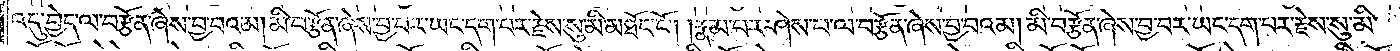འདུ་བྱེད་ལ་བརྩོན་ཞེས་བྱ་བའམ། མི་བརྩོན་ཞེས་བྱ་བར་ཡང་དག་པར་རྗེས་སུ་མི་མཐོང་ངོ༌། །རྣམ་པར་ཤེས་པ་ལ་བརྩོན་ཞེས་བྱ་བའམ། མི་བརྩོན་ཞེས་བྱ་བར་ཡང་དག་པར་རྗེས་སུ་མི་
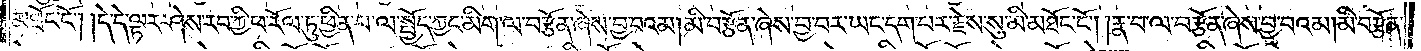མཐོང་ངོ༌། །དེ་དེ་ལྟར་ཤེས་རབ་ཀྱི་ཕ་རོལ་ཏུ་ཕྱིན་པ་ལ་སྤྱོད་ཀྱང་མིག་ལ་བརྩོན་ཞེས་བྱ་བའམ། མི་བརྩོན་ཞེས་བྱ་བར་ཡང་དག་པར་རྗེས་སུ་མི་མཐོང་ངོ༌། །རྣ་བ་ལ་བརྩོན་ཞེས་བྱ་བའམ། མི་བརྩོན་
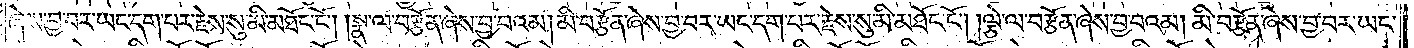ཞེས་བྱ་བར་ཡང་དག་པར་རྗེས་སུ་མི་མཐོང་ངོ༌། །སྣ་ལ་བརྩོན་ཞེས་བྱ་བའམ། མི་བརྩོན་ཞེས་བྱ་བར་ཡང་དག་པར་རྗེས་སུ་མི་མཐོང་ངོ༌། །ལྕེ་ལ་བརྩོན་ཞེས་བྱ་བའམ། མི་བརྩོན་ཞེས་བྱ་བར་ཡང་
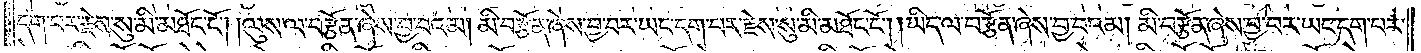དག་པར་རྗེས་སུ་མི་མཐོང་ངོ༌། །ལུས་ལ་བརྩོན་ཞེས་བྱ་བའམ། མི་བརྩོན་ཞེས་བྱ་བར་ཡང་དག་པར་རྗེས་སུ་མི་མཐོང་ངོ༌། །ཡིད་ལ་བརྩོན་ཞེས་བྱ་བའམ། མི་བརྩོན་ཞེས་བྱ་བར་ཡང་དག་པར་
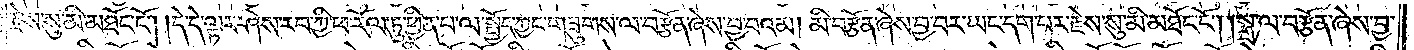རྗེས་སུ་མི་མཐོང་ངོ༌། །དེ་དེ་ལྟར་ཤེས་རབ་ཀྱི་ཕ་རོལ་ཏུ་ཕྱིན་པ་ལ་སྤྱོད་ཀྱང་གཟུགས་ལ་བརྩོན་ཞེས་བྱ་བའམ། མི་བརྩོན་ཞེས་བྱ་བར་ཡང་དག་པར་རྗེས་སུ་མི་མཐོང་ངོ༌། །སྒྲ་ལ་བརྩོན་ཞེས་བྱ་
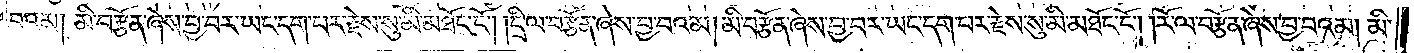བའམ། མི་བརྩོན་ཞེས་བྱ་བར་ཡང་དག་པར་རྗེས་སུ་མི་མཐོང་ངོ༌། །དྲི་ལ་བརྩོན་ཞེས་བྱ་བའམ། མི་བརྩོན་ཞེས་བྱ་བར་ཡང་དག་པར་རྗེས་སུ་མི་མཐོང་ངོ༌། །རོ་ལ་བརྩོན་ཞེས་བྱ་བའམ། མི་
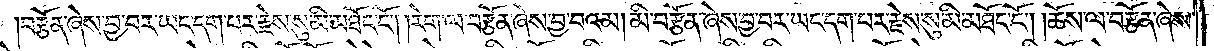བརྩོན་ཞེས་བྱ་བར་ཡང་དག་པར་རྗེས་སུ་མི་མཐོང་ངོ༌། །རེག་ལ་བརྩོན་ཞེས་བྱ་བའམ། མི་བརྩོན་ཞེས་བྱ་བར་ཡང་དག་པར་རྗེས་སུ་མི་མཐོང་ངོ༌། །ཆོས་ལ་བརྩོན་ཞེས་
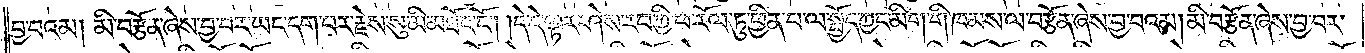བྱ་བའམ། མི་བརྩོན་ཞེས་བྱ་བར་ཡང་དག་པར་རྗེས་སུ་མི་མཐོང་ངོ༌། །དེ་དེ་ལྟར་ཤེས་རབ་ཀྱི་ཕ་རོལ་ཏུ་ཕྱིན་པ་ལ་སྤྱོད་ཀྱང་མིག་གི་ཁམས་ལ་བརྩོན་ཞེས་བྱ་བའམ། མི་བརྩོན་ཞེས་བྱ་བར་
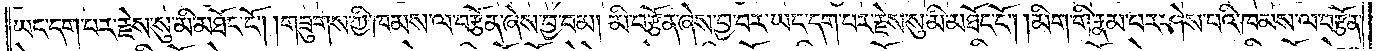ཡང་དག་པར་རྗེས་སུ་མི་མཐོང་ངོ༌། །གཟུགས་ཀྱི་ཁམས་ལ་བརྩོན་ཞེས་བྱ་བའམ། མི་བརྩོན་ཞེས་བྱ་བར་ཡང་དག་པར་རྗེས་སུ་མི་མཐོང་ངོ༌། །མིག་གི་རྣམ་པར་ཤེས་པའི་ཁམས་ལ་བརྩོན་
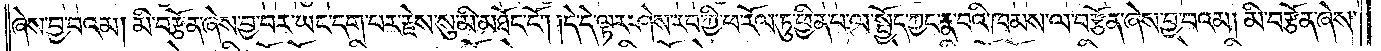ཞེས་བྱ་བའམ། མི་བརྩོན་ཞེས་བྱ་བར་ཡང་དག་པར་རྗེས་སུ་མི་མཐོང་ངོ༌། །དེ་དེ་ལྟར་ཤེས་རབ་ཀྱི་ཕ་རོལ་ཏུ་ཕྱིན་པ་ལ་སྤྱོད་ཀྱང་རྣ་བའི་ཁམས་ལ་བརྩོན་ཞེས་བྱ་བའམ། མི་བརྩོན་ཞེས་
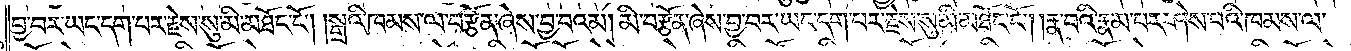བྱ་བར་ཡང་དག་པར་རྗེས་སུ་མི་མཐོང་ངོ༌། །སྒྲའི་ཁམས་ལ་བརྩོན་ཞེས་བྱ་བའམ། མི་བརྩོན་ཞེས་བྱ་བར་ཡང་དག་པར་རྗེས་སུ་མི་མཐོང་ངོ༌། །རྣ་བའི་རྣམ་པར་ཤེས་པའི་ཁམས་ལ་
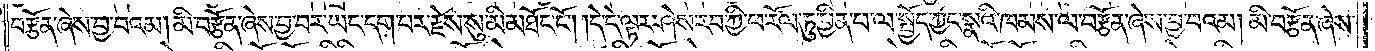བརྩོན་ཞེས་བྱ་བའམ། མི་བརྩོན་ཞེས་བྱ་བར་ཡང་དག་པར་རྗེས་སུ་མི་མཐོང་ངོ༌། །དེ་དེ་ལྟར་ཤེས་རབ་ཀྱི་ཕ་རོལ་ཏུ་ཕྱིན་པ་ལ་སྤྱོད་ཀྱང་སྣའི་ཁམས་ལ་བརྩོན་ཞེས་བྱ་བའམ། མི་བརྩོན་ཞེས་
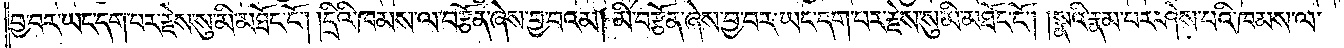བྱ་བར་ཡང་དག་པར་རྗེས་སུ་མི་མཐོང་ངོ༌། །དྲིའི་ཁམས་ལ་བརྩོན་ཞེས་བྱ་བའམ། མི་བརྩོན་ཞེས་བྱ་བར་ཡང་དག་བར་རྗེས་སུ་མི་མཐོང་ངོ༌། །སྣའི་རྣམ་པར་ཤེས་པའི་ཁམས་ལ་
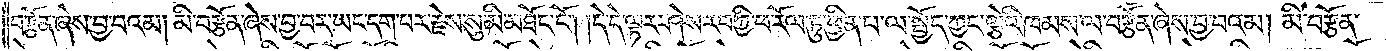བརྩོན་ཞེས་བྱ་བའམ། མི་བརྩོན་ཞེས་བྱ་བར་ཡང་དག་པར་རྗེས་སུ་མི་མཐོང་ངོ༌། །དེ་དེ་ལྟར་ཤེས་རབ་ཀྱི་ཕ་རོལ་ཏུ་ཕྱིན་པ་ལ་སྤྱོད་ཀྱང་ལྕེའི་ཁམས་ལ་བརྩོན་ཞེས་བྱ་བའམ། མི་བརྩོན་
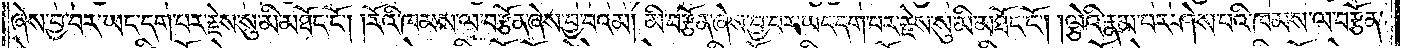ཞེས་བྱ་བར་ཡང་དག་པར་རྗེས་སུ་མི་མཐོང་ངོ༌། །རོའི་ཁམས་ལ་བརྩོན་ཞེས་བྱ་བའམ། མི་བརྩོན་ཞེས་བྱ་བར་ཡང་དག་པར་རྗེས་སུ་མི་མཐོང་ངོ༌། །ལྕེའི་རྣམ་བར་ཤེས་པའི་ཁམས་ལ་བརྩོན་
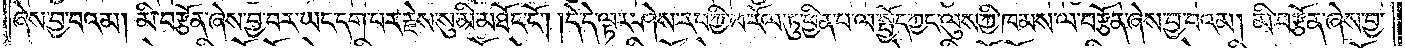ཞེས་བྱ་བའམ། མི་བརྩོན་ཞེས་བྱ་བར་ཡང་དག་པར་རྗེས་སུ་མི་མཐོང་ངོ༌། །དེ་དེ་ལྟར་ཤེས་རབ་ཀྱི་ཕ་རོལ་ཏུ་ཕྱིན་པ་ལ་སྤྱོད་ཀྱང་ལུས་ཀྱི་ཁམས་ལ་བརྩོན་ཞེས་བྱ་བའམ། མི་བརྩོན་ཞེས་བྱ་
